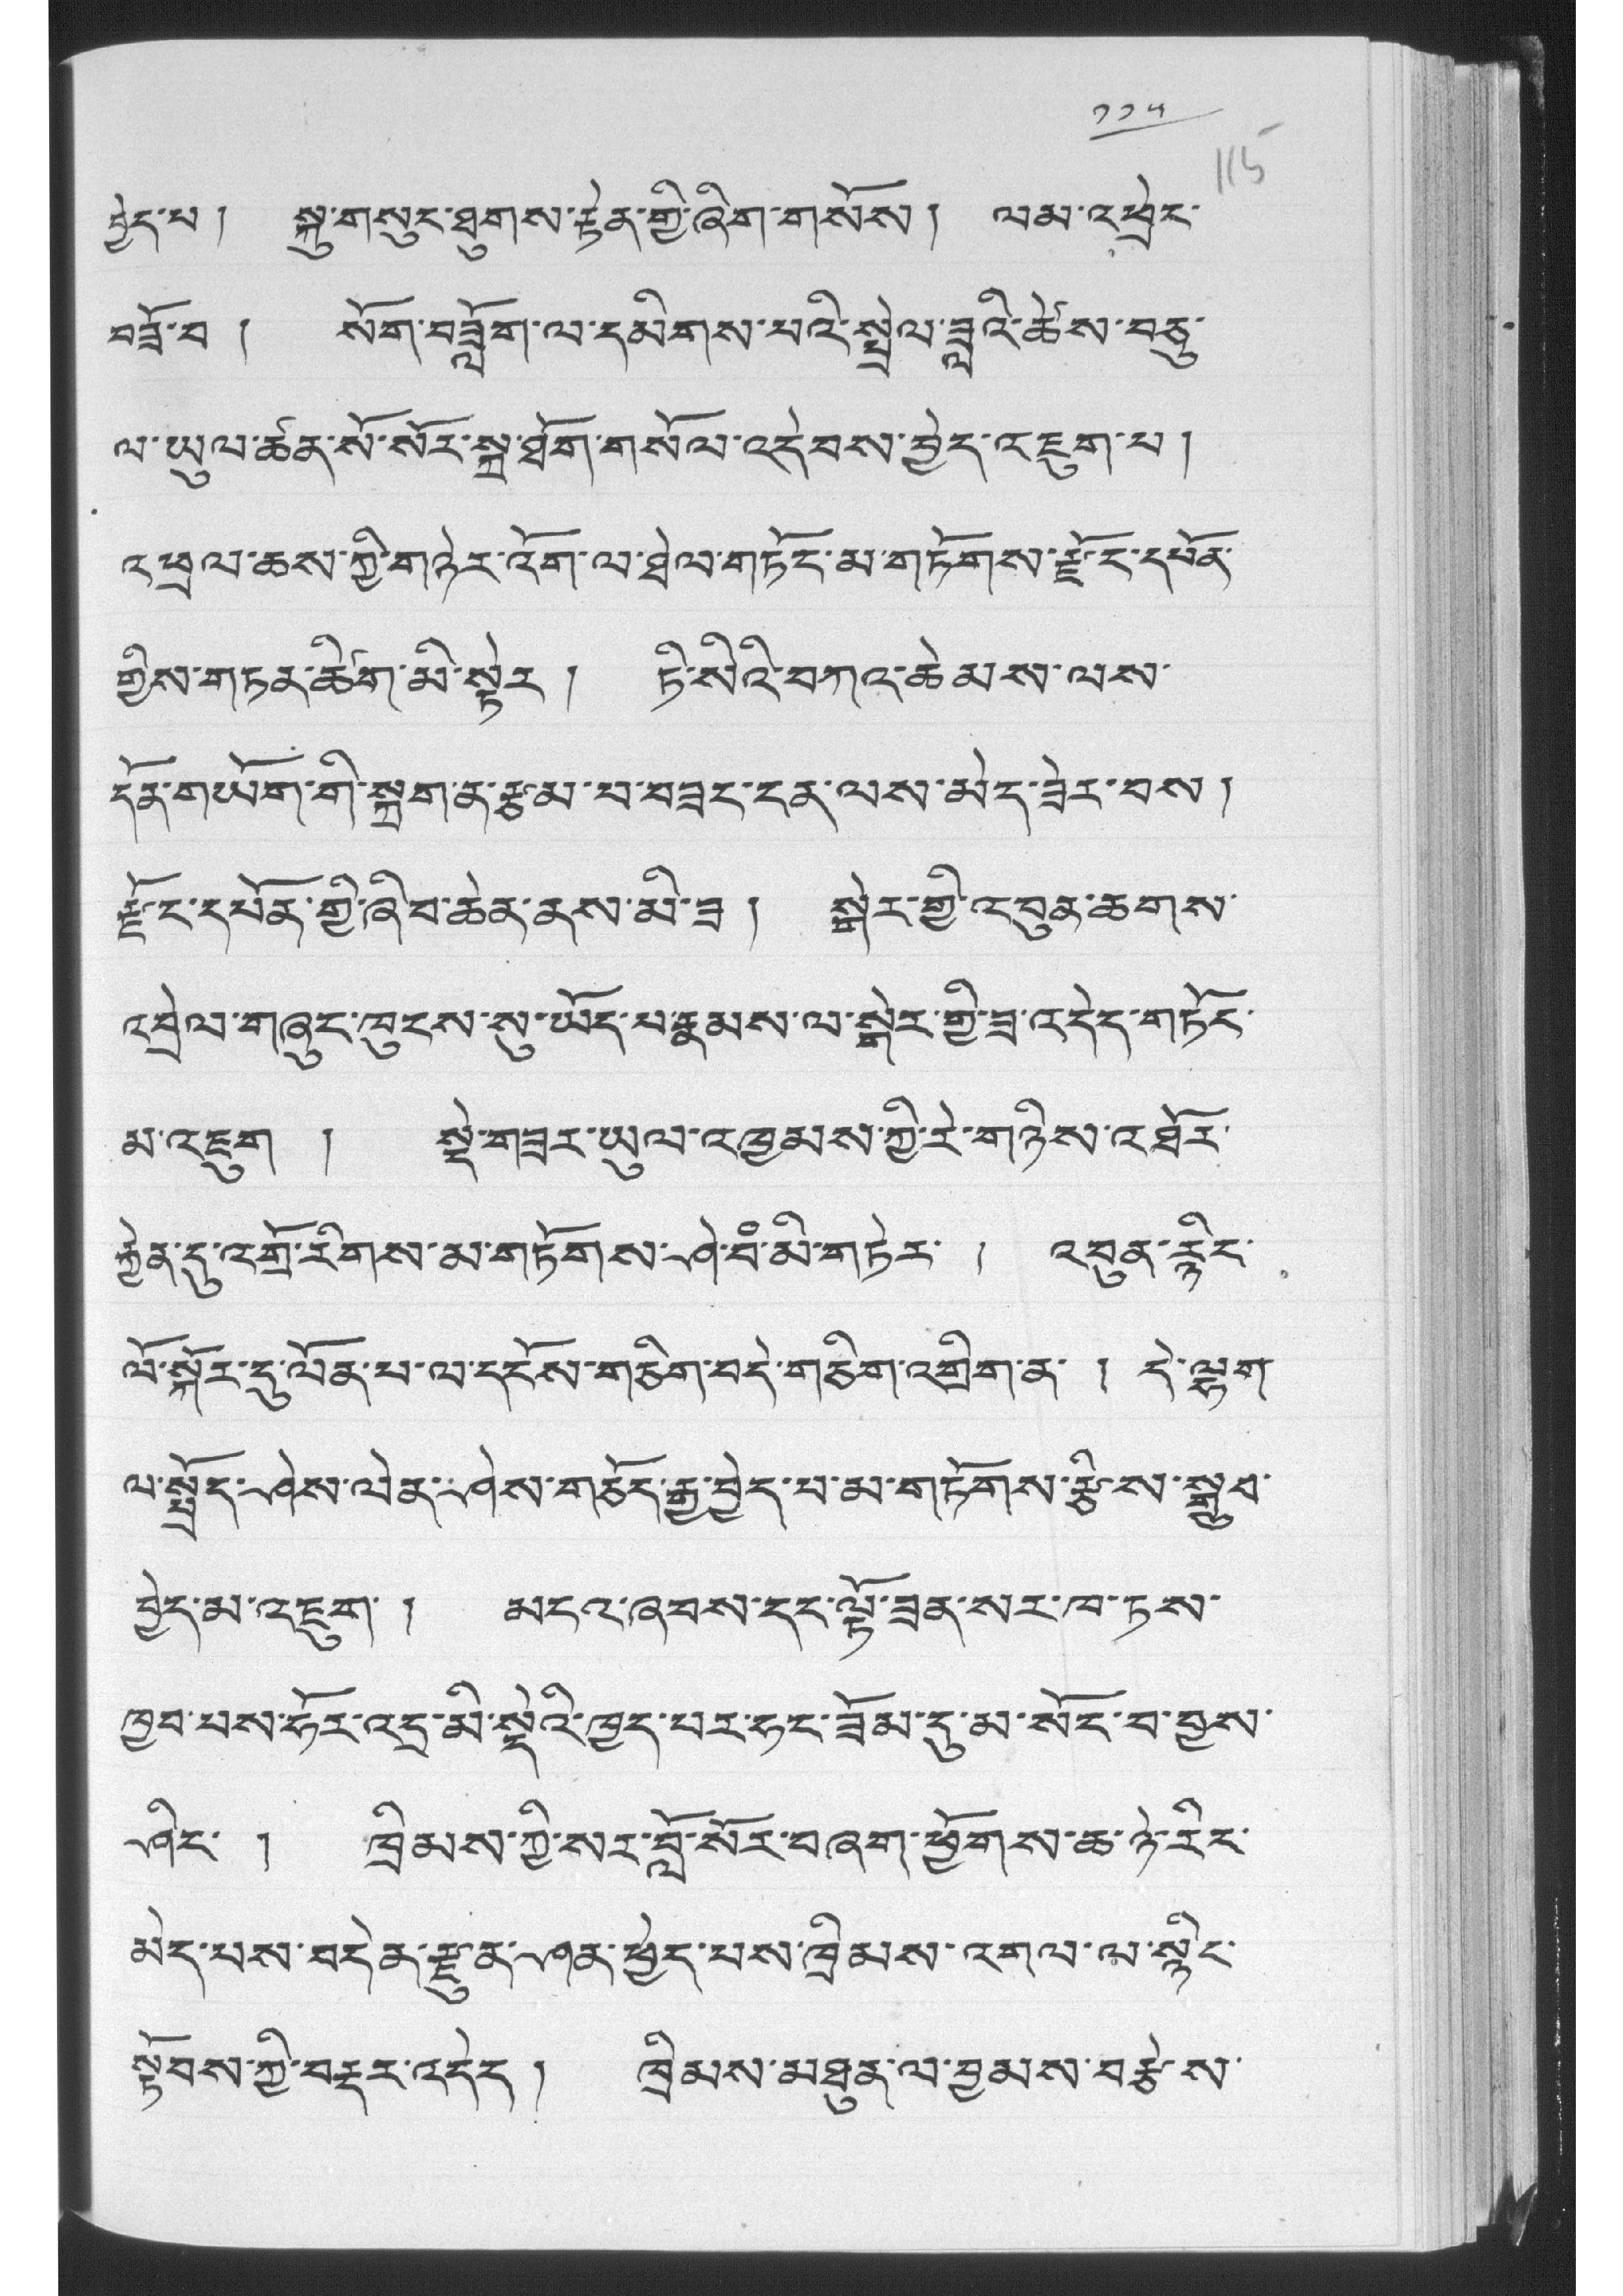༡༡༥
བྱེད་པ། སྐུ་གསུང་ཐུགས་རྟེན་གྱི་ཞིག་གསོས། ལམ་འཕྲེང་
བཟོ་བ ། སོག་བཟློག་ལ་དམིགས་པའི་སྤྲེལ་ཟླའི་ཚེས་བཅུ་
ལ་ཡུལ་ཚན་སོ་སོར་སྐྲ་ཐོག་གསོལ་འདེབས་བྱེད་འཇུག་པ།
འཕྲལ་ཆས་ཀྱི་གཉེར་འོག་ལ་ཐེལ་གཏོང་མ་གཏོགས་རྗོང་དཔོན་
གྱིས་གཏན་ཚིག་མི་སྟེར། ཏི་སིའི་བཀའ་ཆེམས་ལས་
དོན་གཡོག་གི་སྐྲག་ན་རྩམ་པ་བཟང་ངན་ལས་མེད་ཟེར་བས།
རྫོང་དཔོན་གྱི་ཞི་བ་ཆེན་ནས་མི་ཟ། སྒེར་གྱི་འབུན་ཆགས་
འབྲེལ་གཞུང་ཁུངས་སུ་ཡོད་པ་རྣམས་ལ་སྒེར་གྱི་ཟ་འདེད་གཏོང་
མ་འཇུག ། སྡེ་གཟར་ཡུལ་འཁྱམས་ཀྱི་རེ་གཉིས་འཐོར་
རྐྱེན་དུ་འགྲོ་རིགས་མ་གཏོགས་ཤེ་བཾ་མི་གཏེར་ ། འབུན་རྙིང་
ལོ་སྐོར་དུ་ལོན་པ་ལ་དངོས་གཅིག་བདེ་གཅིག་འགྲིག་ན་ ། དེ་ལྷག་
ལ་སྤྲོད་ཤེས་ལེན་ཤེས་གཅོད་རྒྱ་བྱེད་པ་མ་གཏོགས་རྩིས་སྒྲུབ་
བྱེད་མ་འཇུག་། མངའ་ཞབས་དང་ལྟོ་ཟན་སར་ཁ་ཏས་
ཁྱབ་པས་ཧོར་འདྲ་མི་སྡེའི་ཁྱད་པར་ཧང་ཟོམ་དུ་མ་སོང་བ་བྱས་
ཤིང་ ། ཁྲིམས་ཀྱི་སར་བློ་སོར་བཞག་ཕྱོགས་ཆ་ཉེ་རིར་
མེད་པས་བདེན་རྫུན་ཤན་ཕྱེད་པས་ཁྲིམས་འགལ་ལ་སྙིང་
སྟོབས་ཀྱི་བརྡར་འདོད། ཁྲིམས་མཐུན་ལ་བྱམས་བརྩེས་
